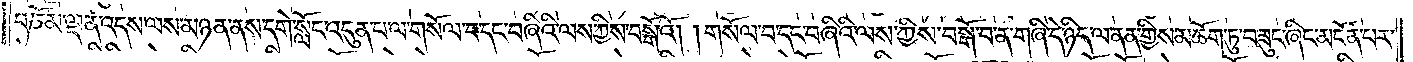བཅོམ་ལྡན་འདས་ལས་མཉན་ནས་དགེ་སློང་འདུན་པ་ལ་གསོལ་བ་དང་བཞིའི་ལས་ཀྱིས་བསྒོའོ། །གསོལ་བ་དང་བཞིའི་ལས་ཀྱིས་བསྒོ་བ་ན་གཞི་དེ་ཉིད་ལ་ནན་གྱིས་མཆོག་ཏུ་བཟུང་ཞིང་མངོན་པར་
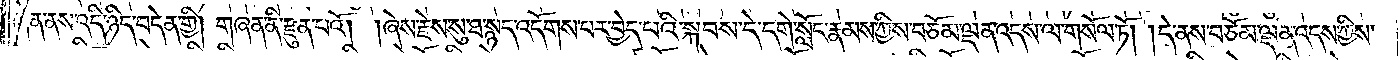ཞེན་ནས་འདི་ཉིད་བདེན་གྱི། གཞན་ནི་རྫུན་པའོ། །ཞེས་རྗེས་སུ་ཐ་སྙད་འདོགས་པར་བྱེད་པའི་སྐབས་དེ་དགེ་སློང་རྣམས་ཀྱིས་བཅོམ་ལྡན་འདས་ལ་གསོལ་ཏོ། །དེ་ནས་བཅོམ་ལྡན་འདས་ཀྱིས་
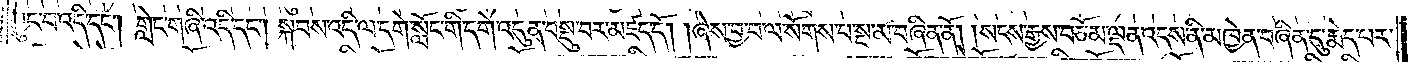བྱུང་བ་འདི་དང༌། གླེང་གཞི་འདི་དང༌། སྐབས་འདི་ལ་དགེ་སློང་གི་དགེ་འདུན་བསྡུ་བར་མཛད་དོ། །ཞེས་བྱ་བ་ལ་སོགས་པ་སྔ་མ་བཞིན་ནོ། །སངས་རྒྱས་བཅོམ་ལྡན་འདས་ནི་མཁྱེན་བཞིན་དུ་རྨེད་པར་
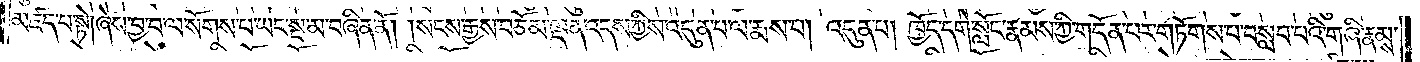མཛད་པ་སྟེ། ཞེས་བྱ་བ་ལ་སོགས་པ་ཡང་སྔ་མ་བཞིན་ནོ། །སངས་རྒྱས་བཅོམ་ལྡན་འདས་ཀྱིས་འདུན་པ་ལ་རྨས་པ། འདུན་པ། ཁྱོད་དགེ་སློང་རྣམས་ཀྱི་གདོན་པར་གཏོགས་པ་བསླབ་པའི་གཞི་རྣམས་
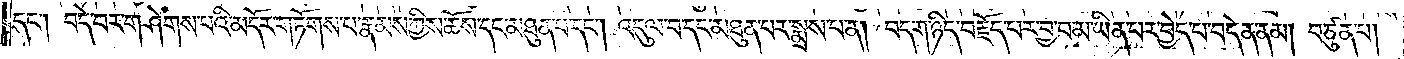དང༌། བདེ་བར་གཤེགས་པའི་མདོར་གཏོགས་པ་རྣམས་ཀྱིས་ཆོས་དང་མཐུན་པ་དང༌། འདུལ་བ་དང་མཐུན་པར་སྨྲས་པ་ན། བདག་ཉིད་བརྗོད་པར་བྱ་བ་མ་ཡིན་པར་བྱེད་པ་བདེན་ནམ། བཙུན་པ།
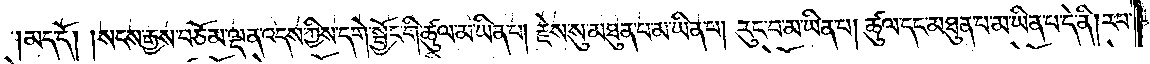མད་དོ། །སངས་རྒྱས་བཅོམ་ལྡན་འདས་ཀྱིས་དགེ་སྦྱོང་གི་ཚུལ་མ་ཡིན་པ། རྗེས་སུ་མཐུན་པ་མ་ཡིན་པ། རུང་བ་མ་ཡིན་པ། ཚུལ་དང་མཐུན་པ་མ་ཡིན་པ་དེ་ནི། རབ་
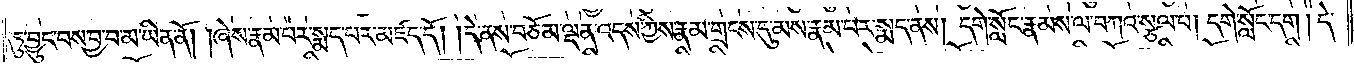ཏུ་བྱུང་བས་བྱ་བ་མ་ཡིན་ནོ། །ཞེས་རྣམ་པར་སྨད་པར་མཛད་དོ། །དེ་ནས་བཅོམ་ལྡན་འདས་ཀྱིས་རྣམ་གྲངས་དུ་མས་རྣམ་པར་སྨད་ནས། དགེ་སློང་རྣམས་ལ་བཀའ་སྩལ་པ། དགེ་སློང་དག། དེ་
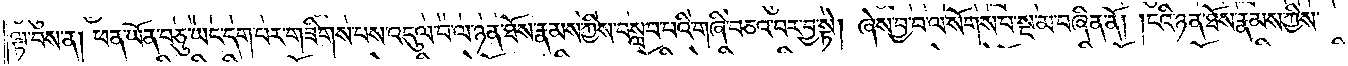ལྟ་བས་ན། ཕན་ཡོན་བཅུ་ཡང་དག་པར་གཟིགས་པས་འདུལ་བ་ལ་ཉན་ཐོས་རྣམས་ཀྱིས་བསླབ་པའི་གཞི་བཅའ་བར་བྱ་སྟེ། ཞེས་བྱ་བ་ལ་སོགས་པ་སྔ་མ་བཞིན་ནོ། །ངའི་ཉན་ཐོས་རྣམས་ཀྱིས་
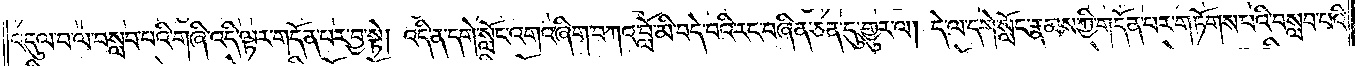འདུལ་བ་ལ་བསླབ་པའི་གཞི་འདི་ལྟར་གདོན་པར་བྱ་སྟེ། འདི་ན་དགེ་སློང་འགའ་ཞིག་བཀའ་བློ་མི་བདེ་བའི་རང་བཞིན་ཅན་དུ་གྱུར་ལ། དེ་ལ་དགེ་སློང་རྣམས་ཀྱི་གདོན་པར་གཏོགས་པའི་བསླབ་པའི་
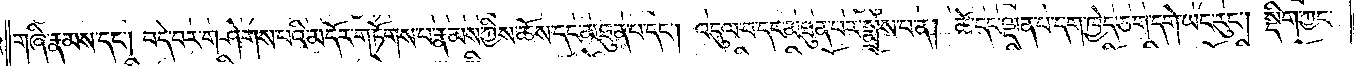གཞི་རྣམས་དང༌། བདེ་བར་གཤེགས་པའི་མདོར་གཏོགས་པ་རྣམས་ཀྱིས་ཆོས་དང་མཐུན་པ་དང༌། འདུལ་བ་དང་མཐུན་པར་སྨྲས་པ་ན། ཚེ་དང་ལྡན་པ་དག་ཁྱེད་ཅག་དགེ་ཡང་རུང༌། སྡིག་ཀྱང་
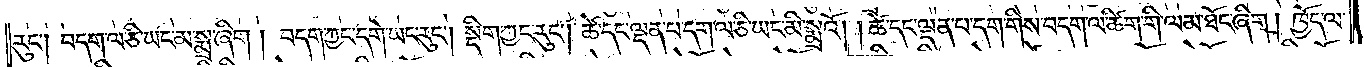རུང༌། བདག་ལ་ཅི་ཡང་མ་སྨྲ་ཞིག། བདག་ཀྱང་དགེ་ཡང་རུང༌། སྡིག་ཀྱང་རུང༌། ཚེ་དང་ལྡན་པ་དག་ལ་ཅི་ཡང་མི་སྨྲའོ། །ཚེ་དང་ལྡན་པ་དག་གིས་བདག་ལ་ཚིག་གི་ལམ་ཐོང་ཞིག། ཁྱོད་ལ་
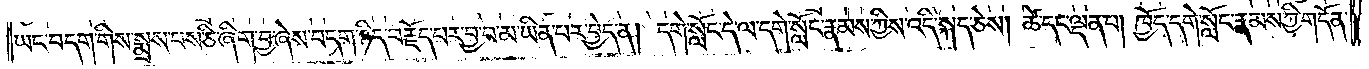ཡང་བདག་གིས་སྨྲས་པས་ཅི་ཞིག་བྱ་ཞེས་བདག་ཉིད་བརྗོད་པར་བྱ་བ་མ་ཡིན་པར་བྱེད་ན། དགེ་སློང་དེ་ལ་དགེ་སློང་རྣམས་ཀྱིས་འདི་སྐད་ཅེས། ཚེ་དང་ལྡན་པ། ཁྱོད་དགེ་སློང་རྣམས་ཀྱི་གདོན་
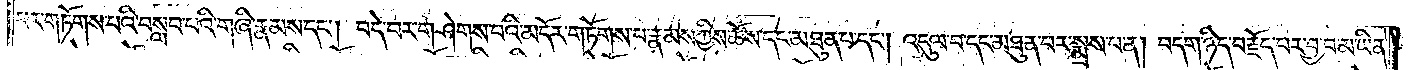པར་གཏོགས་པའི་བསླབ་པའི་གཞི་རྣམས་དང༌། བདེ་བར་གཤེགས་པའི་མདོར་གཏོགས་པ་རྣམས་ཀྱིས་ཆོས་དང་མཐུན་པ་དང༌། འདུལ་བ་དང་མཐུན་པར་སྨྲས་པ་ན། བདག་ཉིད་བརྗོད་པར་བྱ་བ་མ་ཡིན་
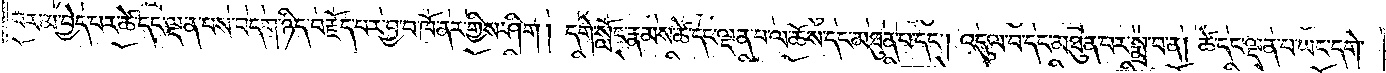པར་མ་བྱེད་པར་ཚེ་དང་ལྡན་པས་བདག་ཉིད་བརྗོད་པར་བྱ་བ་ཁོ་ནར་གྱིས་ཤིག། དགེ་སློང་རྣམས་ཚེ་དང་ལྡན་པ་ལ་ཆོས་དང་མཐུན་པ་དང༌། འདུལ་བ་དང་མཐུན་པར་སྨྲ་བ་ན། ཚེ་དང་ལྡན་པ་ཡང་དགེ་
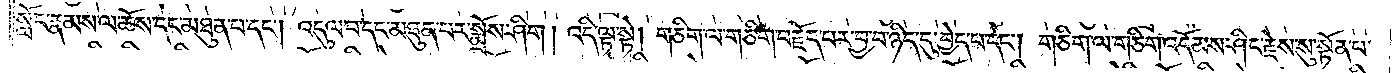སློང་རྣམས་ལ་ཆོས་དང་མཐུན་པ་དང༌། འདུལ་བ་དང་མཐུན་པར་སྨྲོས་ཤིག། འདི་ལྟ་སྟེ། གཅིག་ལ་གཅིག་བརྗོད་པར་བྱ་བ་ཉིད་དུ་བྱེད་པ་དང༌། གཅིག་ལ་གཅིག་འདོམས་ཤིང་རྗེས་སུ་སྟོན་པ་
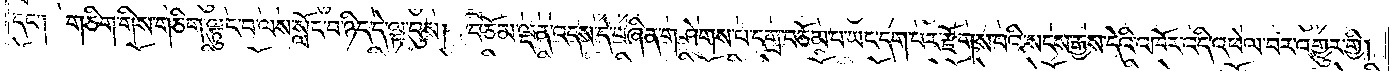དང༌། གཅིག་གིས་གཅིག་ལྟུང་བ་ལས་སློང་བ་ཉིད་དེ་ལྟ་བུས། བཅོམ་ལྡན་འདས་དེ་བཞིན་གཤེགས་པ་དགྲ་བཅོམ་པ་ཡང་དག་པར་རྫོགས་པའི་སངས་རྒྱས་དེའི་འཁོར་འདི་འཕེལ་བར་འགྱུར་གྱི།
